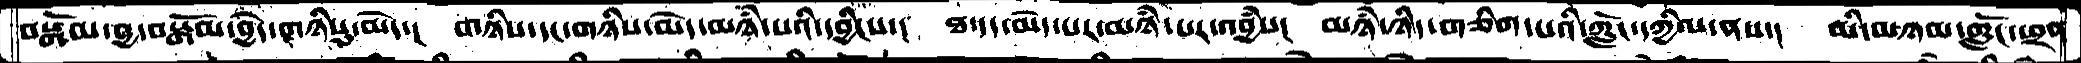བསྒོམ་བྱ་བསྒོམ་བྱེད་གཉིསུ་མེད་།  གཉིས་དང་གཉིས་མེད་མཉཾ་པའི་དབྱིངས་།  ཐ་དད་མེད་པར་མཉཾ་པར་འབྱཾས་  མཉཾ་ཉིད་གཅིག་པའི་ཀློང་དཀྱིལ་ནས་།  མི་མཉམ་གློང་ཕྲན
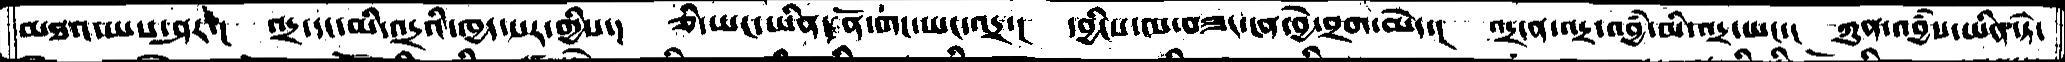མཐའ་ཡས་ཤར་།  འདྲ་དང་མི་འདྲའི་ཁྱད་པར་གྱིས་།  ཅི་ཡང་ཡིན་ནོ་གང་ཡང་འདྲ་།  དབྱིངས་ལ་བཟང་ངན་བྱེ་བྲག་མེད་།  འདྲ་ན་འདྲ་འབྱཾ་མི་འདྲ་ཡང་།  ཀུན་འབྱཾས་ཡིན་ཏེ་
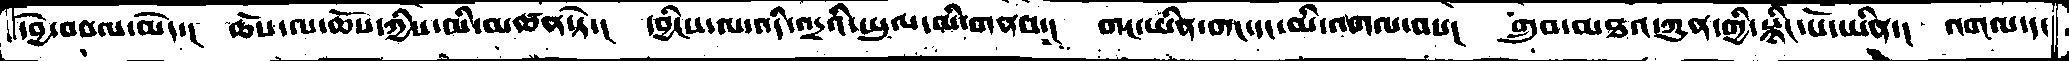དབྱེ་བསལ་མེད་།  ཆོས་ལ་ཆོས་ཀྱིས་མི་མཚན་ཏེ་།  དབྱིངས་ལ་འདི་འདྲའི་ཡུལ་མི་གནས་།  གང་ཡིན་གང་དང་མི་འགལ་བས་།  གྲུབ་མཐའ་ཀུན་གྱི་སྙིང་པོ་ཡིན་།  འགལ་དང
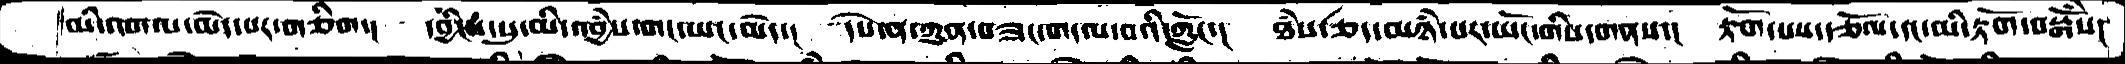མི་འགལ་མེད་པར་གཅིག་། དབྱིངས་སུ་མི་འབྱཾས་གང་ཡང་མེད་། དེས་ན་ཀུན་བཟང་གདལ་བའི་ཀློང་། ཐཾས་ཅད་མཉཾ་པར་ཡོང་གིས་གནས་། རྟོག་པས་དཅོལ་དང་མི་རྡོག་བསྒོཾས།
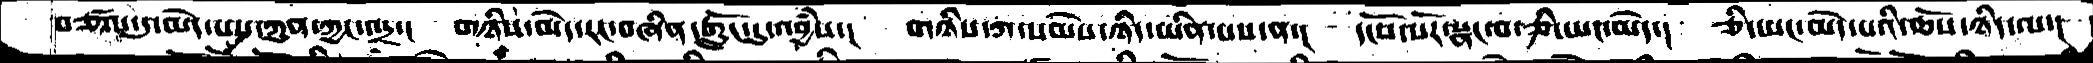བཙལ་དུ་མེད་པས་ཀུན་ཀྱང་འདྲ་།  གཉིས་མེད་རང་བཞིན་གློང་དུ་འབྱཾས་།  གཉིས་ཀ་སེམས་ཉིད་ཡིན་པས་ན་།  དངོས་པོར་སྣང་བ་ཅི་ཡང་མེད་།  ཅི་ཡང་མེད་པའི་ཆོས་ཉིད་ལ་།
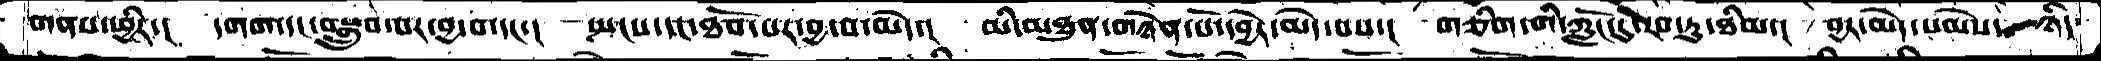གནས་ཕྱིར་།  དགག་དང་བསྒྲུབ་པར་བྱ་བ་དང་།  སྤངས་དང་ཐོབ་པར་བྱ་བ་མེད་།  མི་མཐུན་གཉེན་པོ་དབྱེར་མེད་པས་།  གཅིག་གི་ཀློང་དུ་རབ་ཏུ་ཐིམ་།  བྱར་མེད་སེམས་ ཉིད་
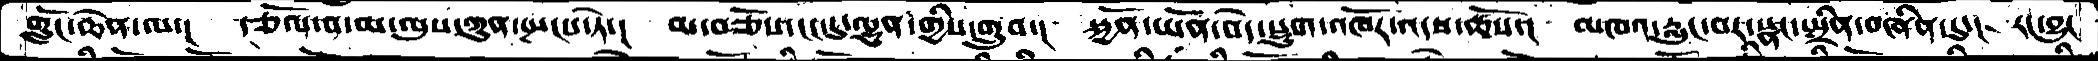གློང་ཆེན་ལ་།  རྩོལ་བ་མ་ལུས་ཀུན་སྤངས་ཏེ་།  མ་བཅོས་ངང་དུ་ལྷུན་གྱིས་གྲུབ་།  སྐྱོན་ཡོན་བདེ་སྡུག་འཁོར་འདས་ཆོས་།  མཁའ་་རླུང་བར་སྣང་སྤྲིན་བཞིན་་དུ་།  རང་བྱུང་
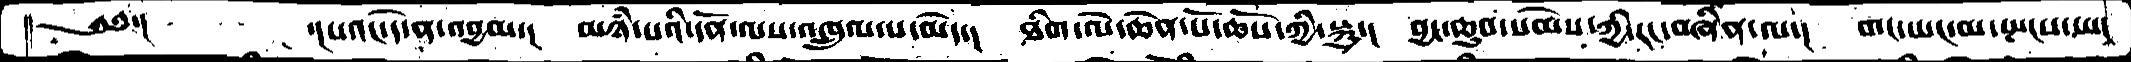༄༅་།       ་།པའང་དེ་ན་འབྱམ་།  མཉཾ་པའི་དོན་ལས་འཁྲུལ་པ་མེད་།  ཐིག་ལེ་ཆེན་པོ་ཆོས་ཀྱི་སྐུ་།  བྱང་ཆུབ་སེམས་ཀྱི་རང་བཞིན་ལ་།  གང་ཡང་མ་སྤངས་ཡང
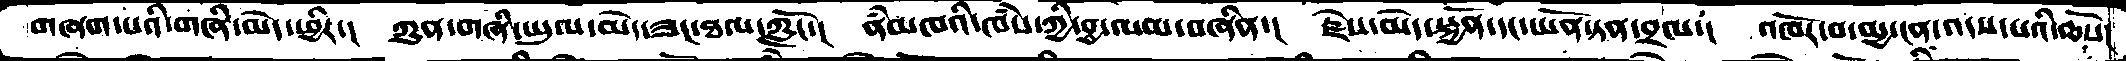གཞག་པའི་གཞི་མེད་ཕྱིར་།  ཀུན་གཞི་ཡུལ་མེད་ཟང་ཐལ་ཀློང་།  ནཾམཁའི་ཁཾས་ཀྱི་བྱ་ལམ་བཞིན་།  རྗེས་མེད་སྐྱོན་དང་ཡོན་ཏན་བྲལ་།  འཁོར་བ་མྱ་ངན་འདས་པའི་ཆོས།
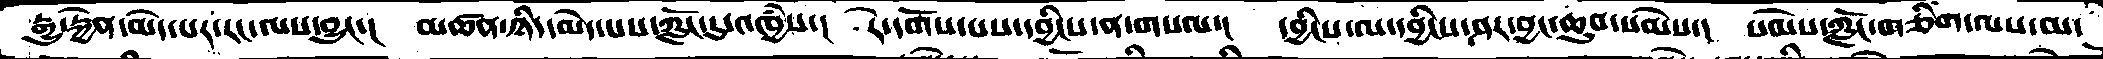རྒྱུ་རྐྱེན་མེད་པར་རང་ལས་བྱུང་།  མཚན་ཉིད་མེད་པས་ཀློང་དུ་འཁྱཾས་།  རེ་དོགས་པས་དབྱིངས་ན་གསལ་།  དབྱིངས་ལ་དབྱིངས་ཤར་བྱང་ཆུབ་སེམས་།  སེམས་ཀློང་གཅིག་ལས་མ་
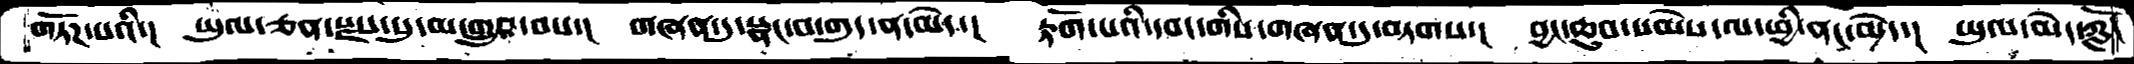གཏོཌ་པའི་།  ཡུལ་ཅན་སྫས་སུ་མ་གྲུབ་བས་།  གཞན་དུ་སྣང་བ་གུད་ན་མེད་།  རྟོག་པའི་དབང་གིས་གཞན་དུ་བཏགས་།  བྱང་ཆུབ་སེམས་ལ་ཕྱི་ནང་མེད་།  ཡུལ་མེད་ཀློང་
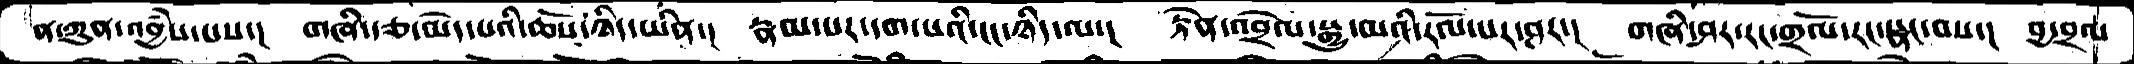ན་ཀུན་འབྱཾས་པས་།  གཞི་རྩ་མེད་པའི་ཆོས་ཉིད་ཡིན་།  རྣམ་པར་དག་པའི་ངང་ཉིད་ལ་།  རྟེན་འབྲེལ་སྒྱུ་མའི་རོལ་པར་ཤར་།  གཞི་ཤར་རང་གྲོལ་རང་སྣང་བས་།  བྱ་བྲལ
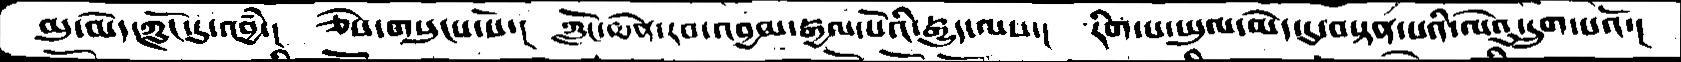མུ་མེད་ཀློང་དུ་འབྱཾ་།  ཅེས་གསུངས་སོ་།  ཀློང་ཆེན་རབ་འབྱམ་རྒྱལ་པོའི་རྒྱུད་ལས་།  རིག་པ་ཡུལ་མེད་དུ་བསྟན་པའི་ལེའུ་དྲུག་པའོ་།
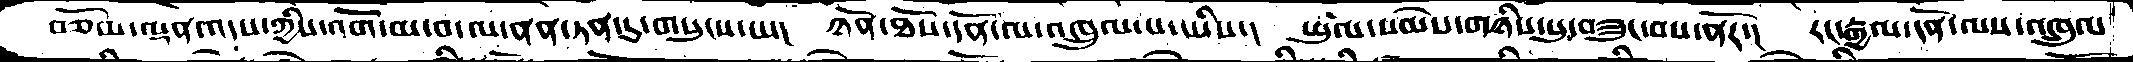བཅོམ་ལྡན་འདས་ཀྱིས་འགོ་མ་བ་ལ་ནན་ཏན་དུ་གསུངས་པ་།  ཉོན་ཐོས་དོན་ལ་འཁྲུལ་པ་ཡིས་།  ཡུལ་སེམས་གཉིས་སུ་བཟུང་བས་ནོར་།  རང་རྒྱལ་དོན་ལས་འཁྲུལ
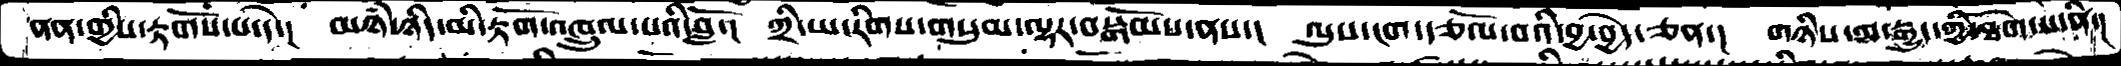ནན་གྱིས་རྟོགས་པ་དེ་།  མཉཾ་ཉིད་མི་རྟོག་འཁྲུལ་པའི་བློ་།  ཀྲི་ཡ་རིགས་གསུམ་ལྷར་བསྒོམས་ནས་།   ལུས་ངག་རྩོལ་བའི་བྱ་བྱེད་ཅན་།  གཉིས་ལ་རྒྱུད་ཀྱི་ཐེག་པ་ནི་།
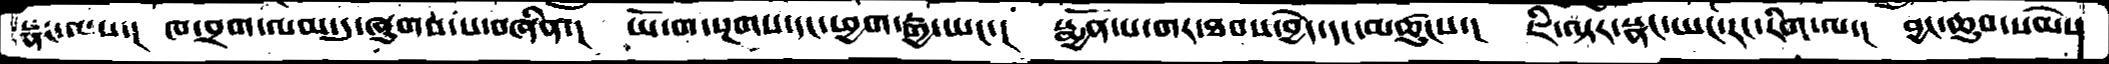སྣང་ལས་།  ཁ་བྲལ་ལམ་དུ་ཞུགས་པ་བཞིན་།  ཡོ་ག་སྔགས་དང་ཕྱག་རྒྱ་ཡང་།  སྨྱོན་པ་གར་ཐབས་བྱེད་དང་མཚུངས་།   ཇི་ལྟར་སྣང་ཡང་རང་རིག་ལ་།  བྱང་ཆུབ་སེམས
